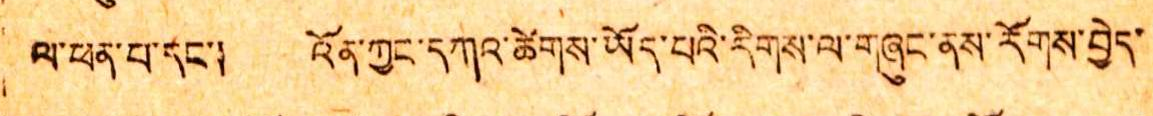ལ་ཕན་བ་དང་། འོན་ཀྱང་དཀའ་ཚེགས་ཡོད་པའི་རིགས་ལ་གཞུང་ནས་རོགས་བྱེད་
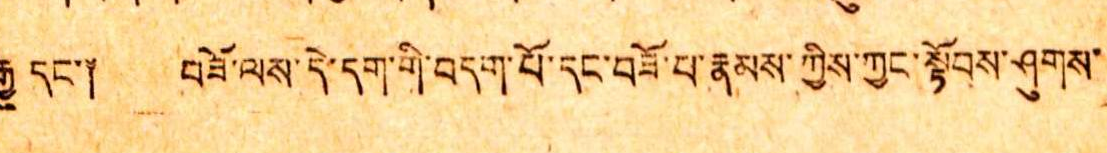རྒྱུ་དང་༐ བཟོ་ལས་དེ་དག་གི་བདག་པོ་དང་བཟོ་པ་རྣམས་ཀྱིས་ཀྱང་སྟོབས་ཤུགས་
